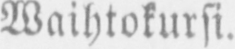Waihtokursi.
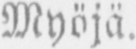Myöjä.
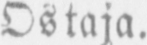Ostaja.
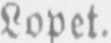Lopet.
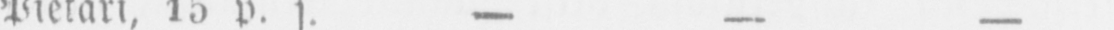Pietari,15 p. s. - - -
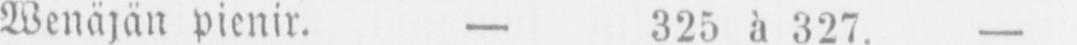Wenäjän. pienir. - 325 à 327.-
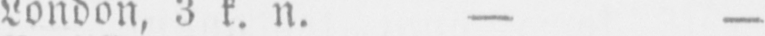London, 3 k. n. — —
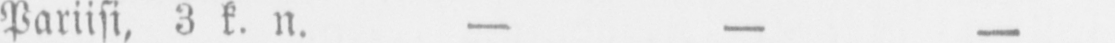Pariisi. 3 k. n. - - -
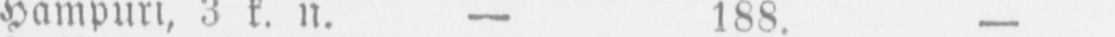Hampuri, 3 k. n. — 188. -
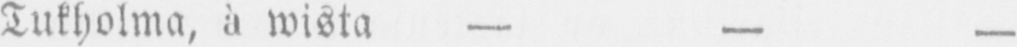Tukholma, à wista — — —
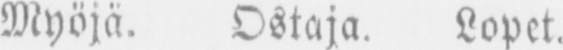Myöjä, Ostaja. Lopet.
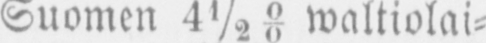Suomen 4½% waltiolai-
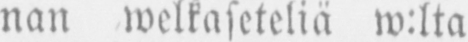nan welkaseteliä w:lta
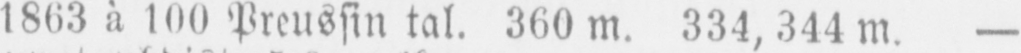1863 à,100 Preussin tal. 360 m. 334, 344 m. —
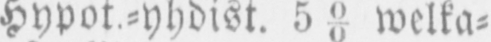Hypot -yhdist, 5% welka-
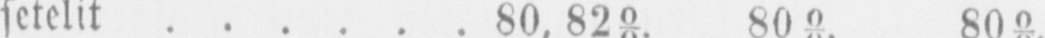setelit...... 80, 82%. 80%. 80%.
